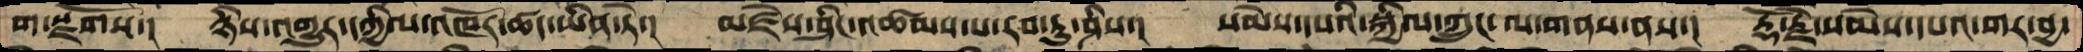ག་སྫོགས་།  ཉིས་འགྱུར་དཀྱིལ་འཁོར་ཚད་ཡིན་ཏེ་།  མཛེས་ཤིང་འཚམས་པ་རབ་ཏུ་ཤིས་།  སེམས་དཔའི་སྐྱིལ་ཀྲུང་ལ་གནས་ནས་།  རྡོ་རྗེ་སེམས་དཔའ་གར་བྱ་
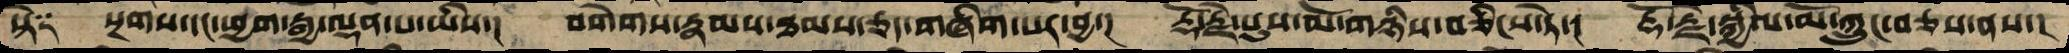སྟེ༑  སྔགས་དང་ཕྱག་རྒྱ་ལྡན་པ་ཡིས་།།  བགེགས་རྣམས་ཐམས་ཅད་གཞིག་པར་བྱ་།  རྡོ་རྗེ་པུས་མོ་གཉིས་བཅིངས་ཏེ་།  རྡོ་རྗེ་སྐྱིལ་མོ་ཀྲུང་བཅས་ནས་།
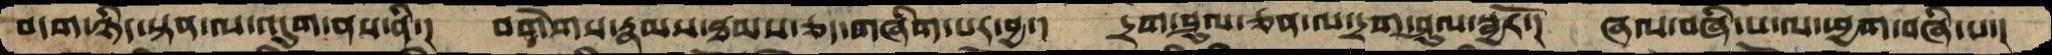བདག་ཉིད་སྟན་ལ་འདུག་ནས་ནི་།  བགེགས་རྣམས་ཐམས་ཅད་གཞིག་པར་བྱ་།  དྲག་ཤུལ་ཅན་ལ་དྲག་ཤུལ་སྦྱོར་།  ཞལ་བཞི་པ་ལ་ཕྱག་བཞི་པ་།
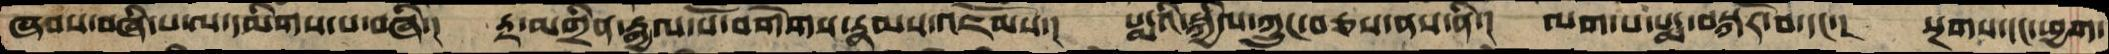ཞབས་བཞི་པ་ལ་དམིགས་པ་བཞི་།  རྟ་མགྲིན་རྒྱལ་པོ་བགེགས་རྣམས་འཇོམས་།  པདྨའི་སྐྱིལ་ཀྲུང་བཅས་ནས་ནི་།  ལག་པ་པདྨ་བསྐོར་བ་དང་་།  སྔགས་དང་ཕྱག་
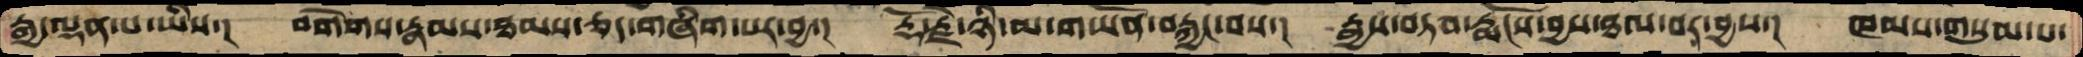རྒྱ་ལྡན་པ་ཡིས་།  བགེགས་རྣམས་ཐམས་ཅད་གཞིག་པར་བྱ་།  རྡོ་རྗེ་ཉི་མ་གཡོན་བརྐྱང་བས་།  རྒྱས་བཏབ་རྨོངས་བྱས་ཐལ་བར་བྱས་།  ཁམས་གསུམ་པ་
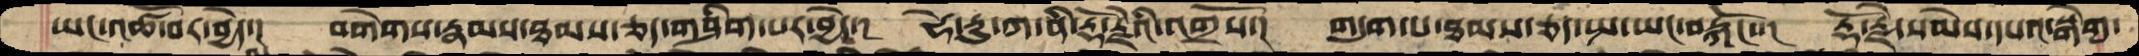ཡང་འཚོ་བར་བྱེད་།  བགེགས་རྣམས་ཐམས་ཅད་གཤིག་པར་བྱེད་།  ཧེ་རུ་ཀ་ནི་རྡོ་རྗེའི་འགྲོས་།  གདུག་པ་ཐམས་ཅད་སྤ་ཡང་བརྐོང་་།  རྡོ་རྗེ་སེམས་དཔའ་སྒེག་
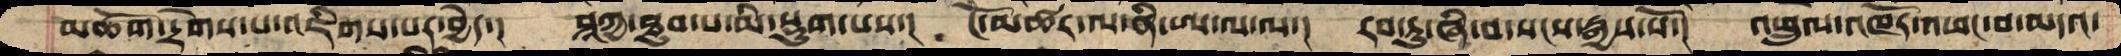མཆོག་དྲེགས་པ་འཇིག་པར་བྱེད་།   ཤཱཀྱ་ཐུབ་པ་མི་སྡུག་པས་།  ངོ་མཚར་ལ་ནི་ཨ་ལ་ལ།  རབ་ཏུ་ཞི་བ་སངས་རྒྱས་སོ་།  འཕྲུལ་འཁོར་འཕང་བ་མདའ་
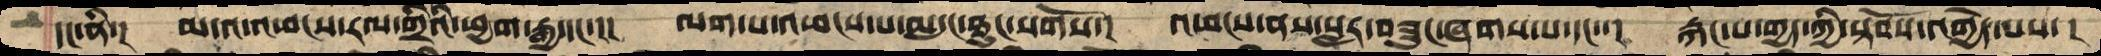དང་ནི་།  མདའ་འཕངས་རལ་གྲིའི་ཕྱག་རྒྱ་དང་་།  ལག་པ་འཕངས་པ་མདུང་ཐུང་སོགས་།  འཕངས་ནས་སླར་བཟུང་ཞགས་པ་དང་་།  རྐང་པ་གྱད་ཀྱི་སྟོབས་འགྱེད་པས་ །
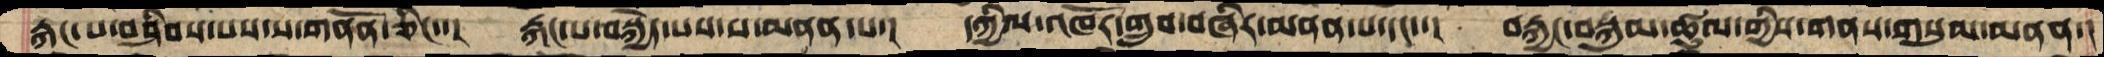རྐང་པ་བཤིབས་པས་ས་གནོན་ཅིང་་།  རྐང་པ་བསྐྱེད་པས་ས་མནན་པ་།  དཀྱིལ་འཁོར་གྲུབ་བཞིར་མནན་པ་དང་་།  བརྐྱང་བསྐུམ་ཚུལ་གྱིས་གནས་གསུམ་མནན་།
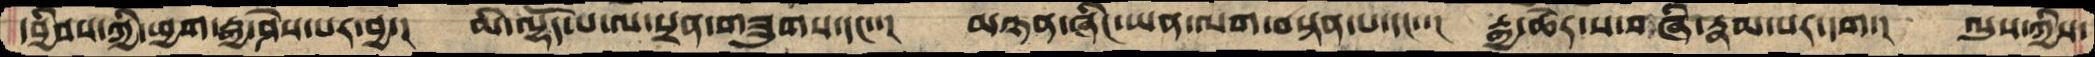དབྱིབས་ཀྱི་ཕྱག་རྒྱ་ཤེས་པར་བྱ་།  མི་ལྷོད་པ་ལ་སྲན་གཟུགས་དང་་།  མཉན་ཞིང་ཡན་ལག་བསྟན་པ་དང་་།  རྒྱ་ཆེར་ས་གཞི་རྣམ་པར་དག་།  ལུས་ཀྱིས་
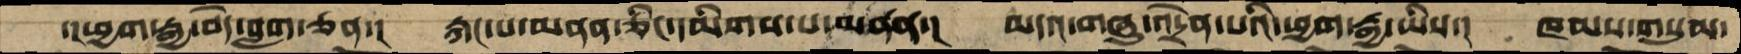་།ཕྱག་རྒྱ་བདེ་བླག་ཅན་།  རྐང་པ་མནན་ཅིང་དམིགས་པ་མནན་།  མདའ་གཞུ་འདྲེན་པའི་ཕྱག་རྒྱ་ཡིས་།  ཁམས་གསུམ་
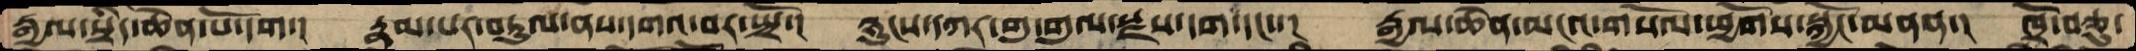རྒྱལ་སྲིད་ཆེན་པོ་དག་།  རྣམ་པར་བཏུལ་ནས་དགའ་བར་སྤྲོ་།  ཉུངས་དཀར་གུ་གུལ་སྫས་དག་དང་་།  རྒྱལ་ཆེན་མངའ་གསོལ་ཕྱོགས་སྐྱོང་མནན་།  ཁྲོ་བཅུ་
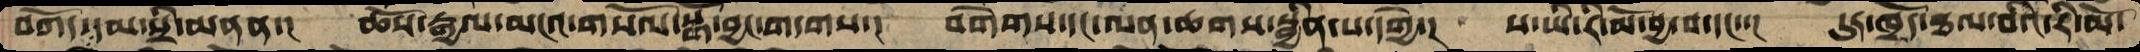བཀོད་དམ་སྲི་མནན་།   ཆོས་རྒྱལ་མངའ་གསོལ་སྒོ་བྱང་གདགས་།  བགེགས་དང་ལན་ཆགས་སྦྱིན་པ་དགྱེ་།  ས་ཡི་རི་མོ་བྱ་བ་དང་་།  དུར་ཁྲོད་ཐལ་བའི་རི་མོ་
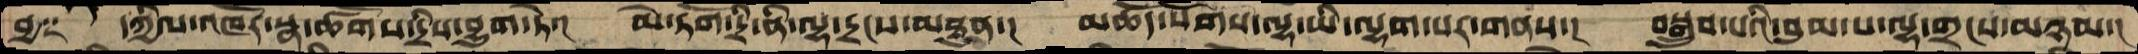བྱ༑  དཀྱིལ་འཁོར་སྣ་ཚོགས་དྲིས་བྱུག་ཏེ་།  མེ་ཏོག་དྲི་ནི་ལྷ་དྲངས་མཐུན་།  མཆོད་སོགས་ལྷ་ཡི་ལྷག་པར་གནས་།  བསྒྲུབ་པའི་བུམ་པ་ལྷ་གྲངས་མཉམ་།
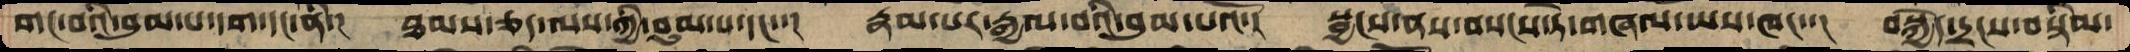གང་བའི་བུམ་པ་དག་དང་ནི་།  ཐམས་ཅད་ལས་ཀྱི་བུམ་པ་དང་་།  རྣམ་པར་རྒྱལ་བའི་བུམ་པའོ་།  སྦྱངས་ནས་བསངས་ཏེ་གཞལ་ཡས་ཁང་་།  བསྐྱེད་དྲངས་བསྟིམ་
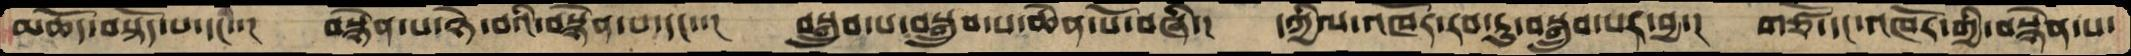མཆོད་བསྟོད་པ་དང་་།  བསྙེན་པ་ཉེ་བའི་བསྙེན་པ་དང་་།  བསྒྲུབ་པ་བསྒྲུབ་པ་ཆེན་པོ་བཞི་།  དཀྱིལ་འཁོར་རབ་ཏུ་བསྒྲུབ་པར་བྱྲ་།  གཙོ་དང་འཁོོོོར་གྱི་བསྙེན་པ་
